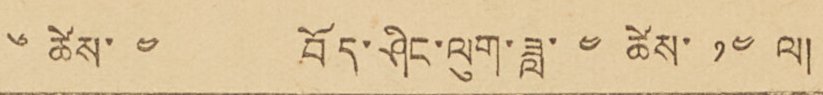2 སྤྱི་ལོ་ ༡༩༥༥ ཟླ་ ༦ ཚེས་ ༤ བོད་ཤིང་ལུག་ཟླ་ ༤ ཚེས་ ༡༤ ལ།
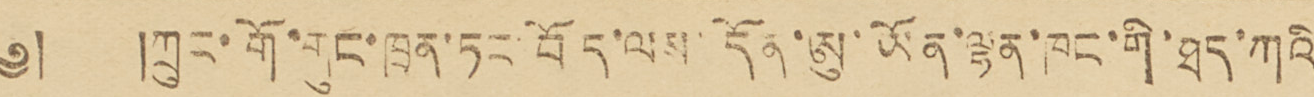༄༅། །ཀྲུང་གོ་གུང་ཁྲན་ཏང་བོད་ལས་དོན་ཨུ་ཡོན་ལྷན་ཁང་གི་ཐད་ཀའི་ཁོངས་
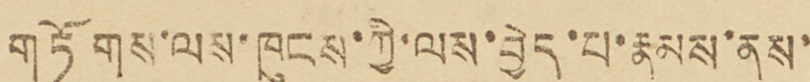གཏོགས་ལས་ཁུངས་ཀྱི་ལས་བྱེད་པ་རྣམས་ནས་
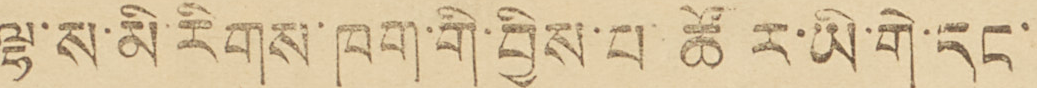ལྷ་ས་མི་རིགས་ཁག་གི་བྱིས་པ་ཚོར་ཡི་གེ་དང་
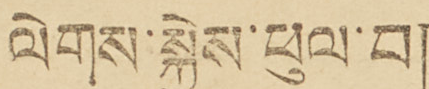ལེགས་སྐྱེས་ཕུལ་བ།
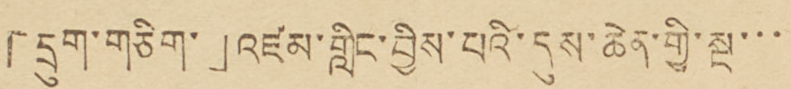「དྲུག་གཅིག་」འཛམ་གླིང་བྱིས་པའི་དུས་ཆེན་གྱི་སྔ་་་
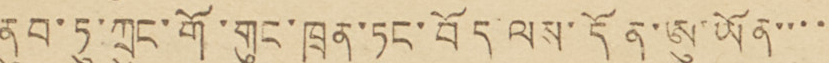ནུབ་ཏུ་ཀྲུང་གོ་གུང་ཁྲན་ཏང་བོད་ལས་དོན་ཨུ་ཡོན་་་་་
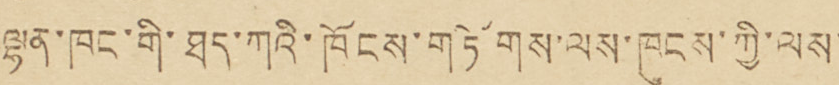ལྷན་ཁང་གི་ཐད་ཀའི་ཁོངས་གཏོགས་ལས་ཁུངས་ཀྱི་ལས་
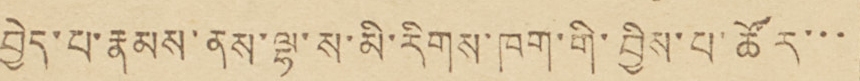བྱེད་པ་རྣམས་ནས་ལྷ་ས་མི་རིགས་ཁག་གི་བྱིས་པ་ཚོར་་་
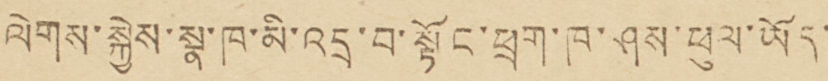ལེགས་སྐྱེས་སྣ་ཁ་མི་འདྲ་བ་སྟོང་ཕྲག་ཁ་ཤས་ཕུལ་ཡོད་་
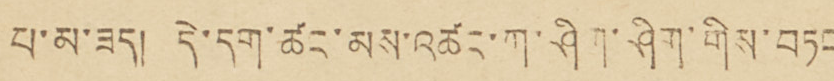པ་མ་ཟད། དེ་དག་ཚང་མས་འཚང་ཀ་ཤིག་ཤིག་གིས་བཏང་
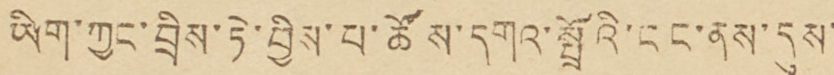ཡིག་ཀྱང་བྲིས་ཏེ་བྱིས་པ་ཚོས་དགའ་སྤྲོའི་ངང་ནས་དུས་་
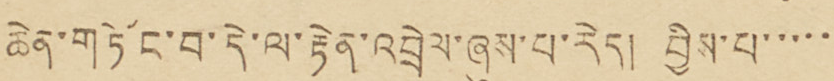ཆེན་གཏོང་བ་དེ་ལ་རྟེན་འབྲེལ་ཞུས་པ་རེད། བྱིས་པ་་་་་་
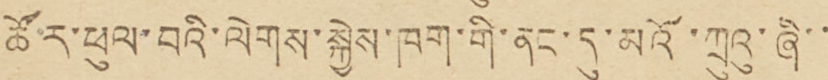ཚོར་ཕུལ་བའི་ལེགས་སྐྱེས་ཁག་གི་ནང་དུ་མའོ་ཀྲུའུ་ཞི་་་
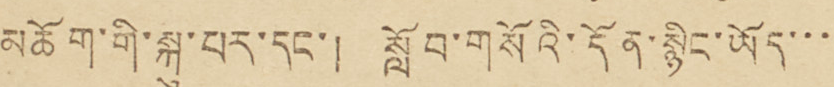མཆོག་གི་སྐུ་པར་དང་། སློབ་གསོའི་དོན་སྙིང་ཡོད་་་་
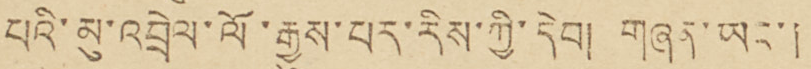པའི་མུ་འབྲེལ་ལོ་རྒྱུས་པར་རིས་ཀྱི་དེབ། གཞན་ཡང་།
